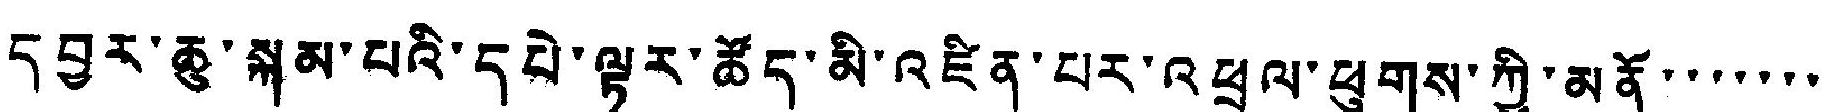དབྱར་ཆུ་སྐམ་པའི་དཔེ་ལྟར་ཚོད་མི་འཛིན་པར་འཕྲལ་ཕུགས་ཀྱི་མནོ་་་་་་་
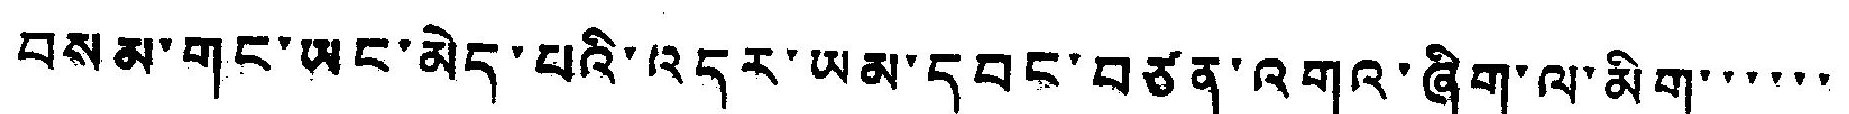བསམ་གང་ཡང་མེད་པའི་འདར་ཡམ་དབང་བཙན་འགའ་ཞིག་ལ་མིག་་་་་་
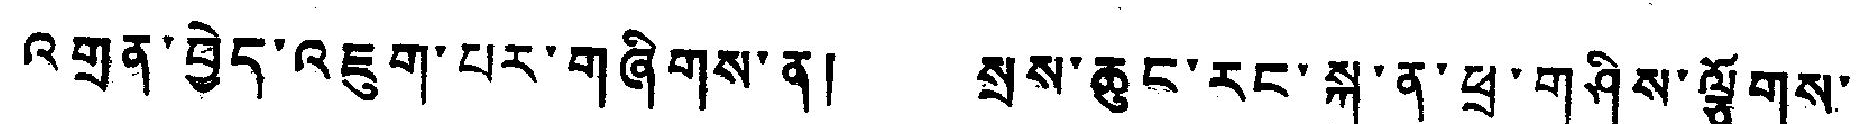འགྲན་བྱེད་འཇུག་པར་གཞིགས་ན། སྲས་ཆུང་རང་སྐུ་ན་ཕྲ་གཤིས་ལྕོགས་
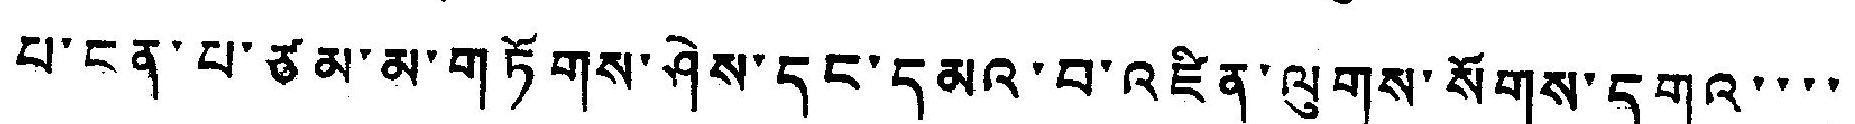པ་ངན་པ་ཙམ་མ་གཏོགས་ཤེས་དང་དམའ་བ་འཛིན་ལུགས་སོགས་དགའ་་་་
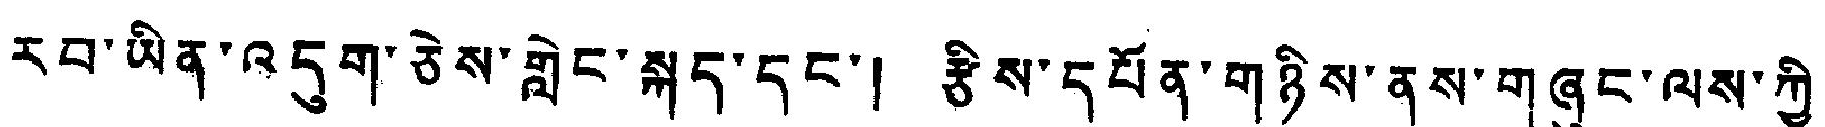རབ་ཡིན་འདུག་ཅེས་གླེང་སྐད་དང་། རྩིས་དཔོན་གཉིས་ནས་གཞུང་ལས་ཀྱི་
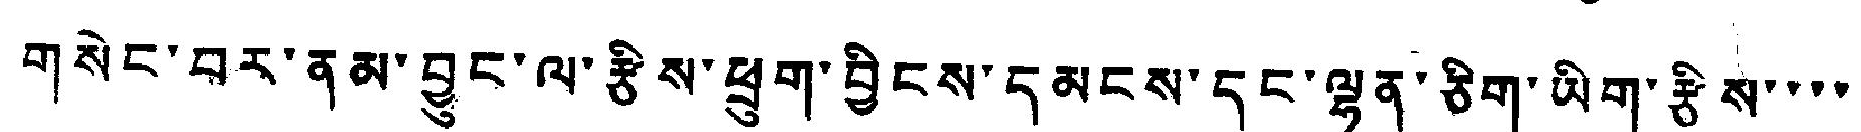གསེང་བར་ནམ་བྱུང་ལ་རྩིས་ཕྲུག་བྱིངས་དམངས་དང་ལྷན་ཅིག་ཡིག་རྩིས་་་་
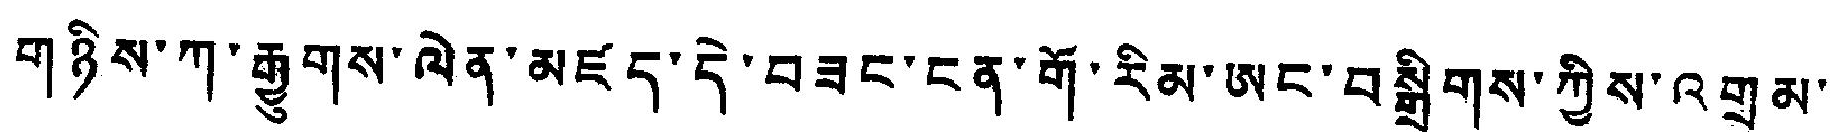གཉིས་ཀ་རྒྱུགས་ལེན་མཛད་དེ་བཟང་ངན་གོ་རིམ་ཨང་བསྒྲིགས་ཀྱིས་འགྲམ་
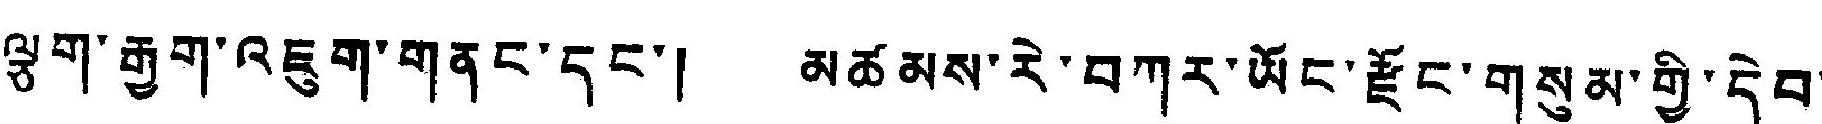ལྕག་རྒྱག་འཇུག་གནང་དང་། མཚམས་རེ་བཀར་ཡོང་རྫོང་གསུམ་གྱི་དེབ་
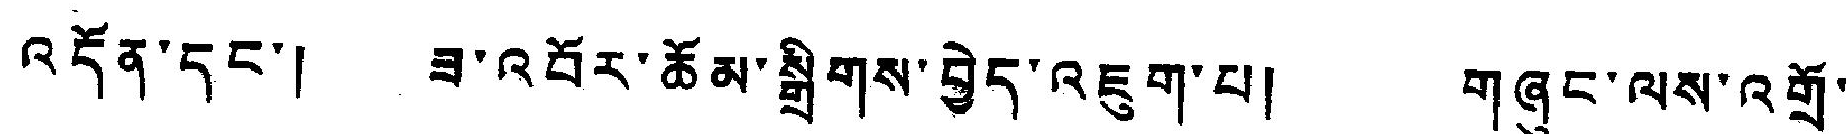འདོན་དང་། ཟ་འབོར་ཆོམ་སྒྲིགས་བྱེད་འཇུག་པ། གཞུང་ལས་འགྲོ་
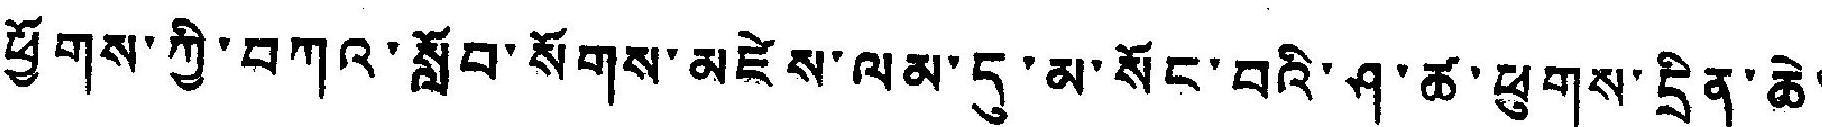ཕྱོགས་ཀྱི་བཀའ་སློབ་སོགས་མཛེས་ལམ་དུ་མ་སོང་བའི་ཤ་ཚ་ཕུགས་དྲིན་ཆེ་
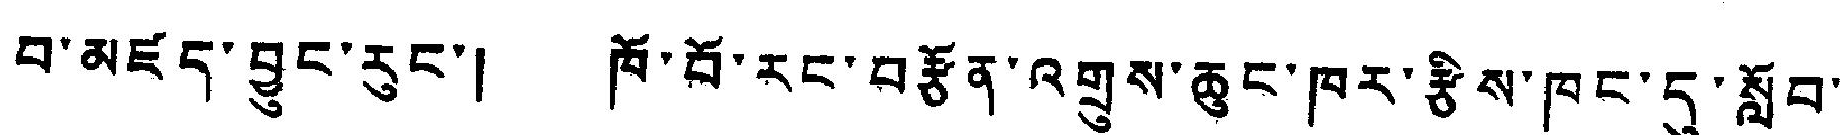བ་མཛད་བྱུང་རུང་། ཁོ་བོ་རང་བརྩོན་འགྲུས་ཆུང་ཁར་རྩིས་ཁང་དུ་སློབ་
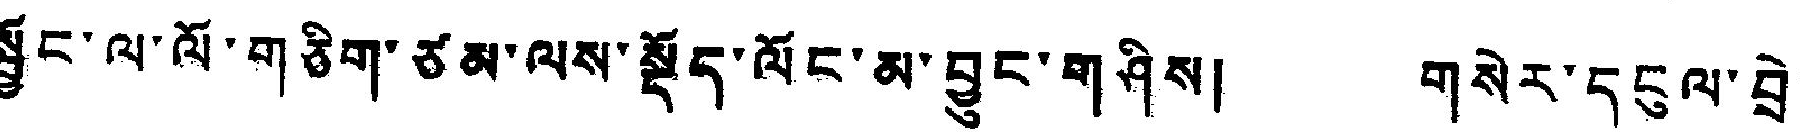སྦྱོང་ལ་ལོ་གཅིག་ཙམ་ལས་སྡོད་ལོང་མ་བྱུང་གཤིས། གསེར་དངུལ་བྲེ་
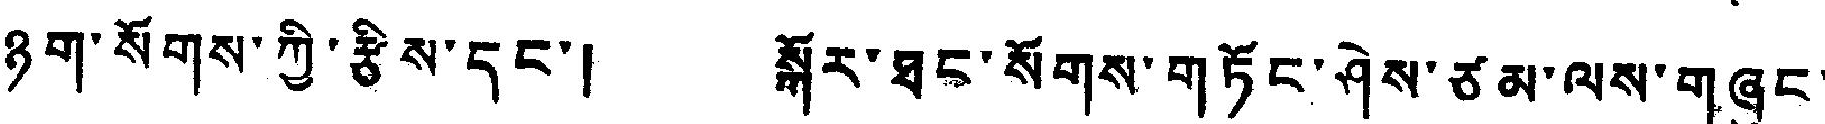ཉག་སོགས་ཀྱི་རྩིས་དང་། སྐོར་ཐང་སོགས་གཏོང་ཤེས་ཙམ་ལས་གཞུང་
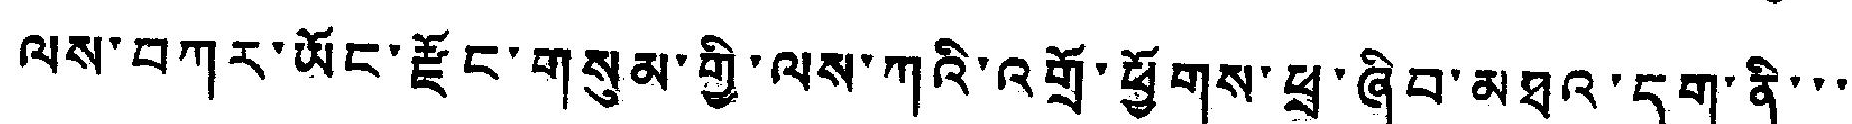ལས་བཀར་ཡོང་རྫོང་གསུམ་གྱི་ལས་ཀའི་འགྲོ་ཕྱོགས་ཕྲ་ཞིབ་མཐའ་དག་ནི་་་
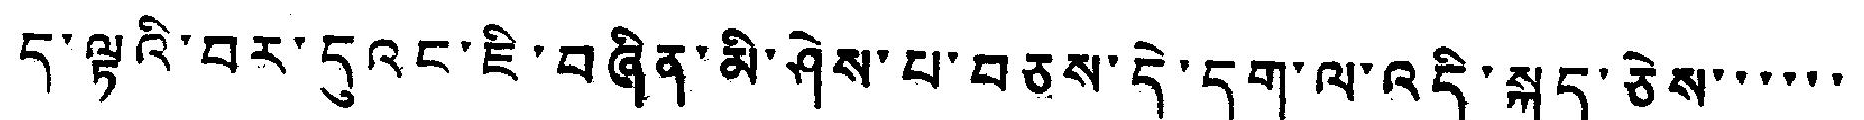ད་ལྟའི་བར་དུའང་ཇི་བཞིན་མི་ཤེས་པ་བཅས་དེ་དག་ལ་འདི་སྐད་ཅེས་་་་་་
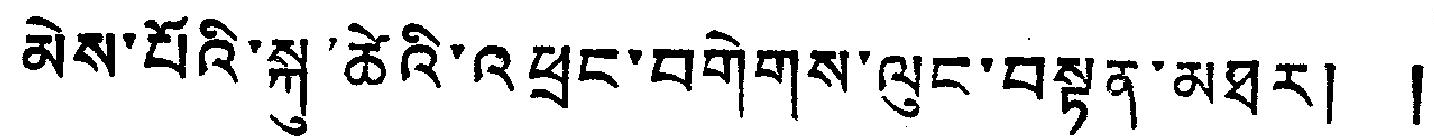མེས་པོའི་སྐུ་ཚེའི་འཕྲང་བགེགས་ལུང་བསྟན་མཐར། །
